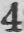4
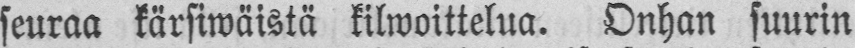seuraa kärsiwäistä kilwoittelua. Onhan suurin
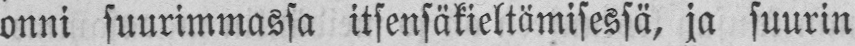onni suurimmassa itsensäkieltämisessä, ja suurin
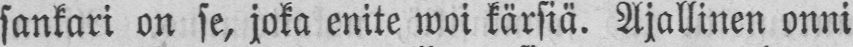sankari on se, joka enite woi kärsiä. Ajallinen onni
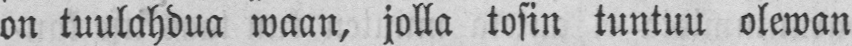on tuulahdua waan, jolla tosin tuntuu olewan
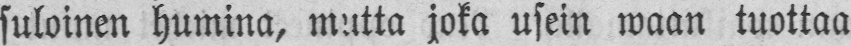suloinen humina, mutta joka usein waan tuottaa
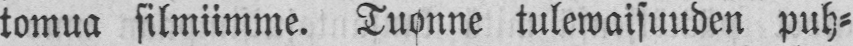tomua silmiimme. Tuonne tulewaisuuden puh-
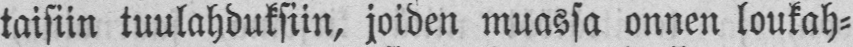taisiin tuulahduksiin, joiden muassa onnen loukah-
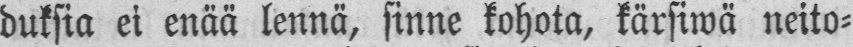duksia ei enää lennä, sinne kohota, kärsiwä neito-
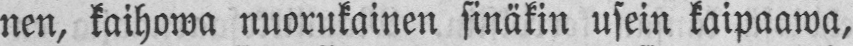nen, kaihowa nuorukainen sinäkin usein kaipaawa,
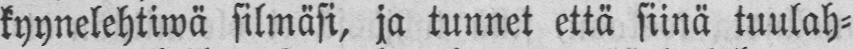kyynelehtiwä silmäsi, ja tunnet että siinä tuulah-
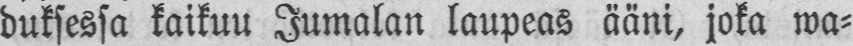duksessa kaikuu Jumalan laupeas ääni, joka wa-
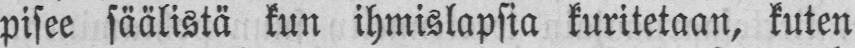pisee säälistä kun ihmislapsia kuritetaan, kuten
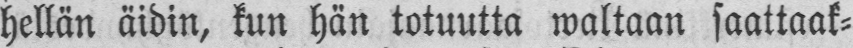hellän äidin, kun hän totuutta waltaan saattaak-
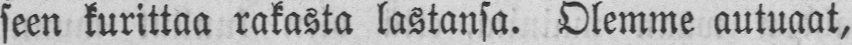seen kurittaa rakasta lastansa. Olemme autuaat,
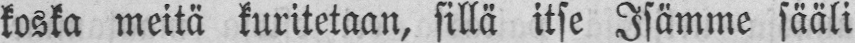koska meitä kuritetaan, sillä itse Isämme sääli
